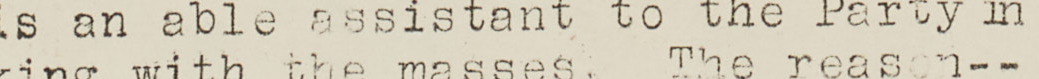Representatives of armed forces to-
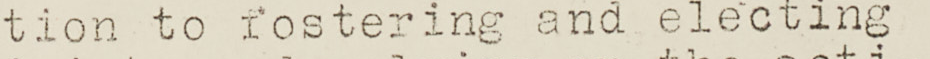"Those rosy hopes, however, did
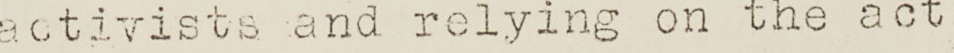not last long--especially on the
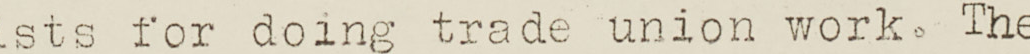part of overseas Chinese. In less
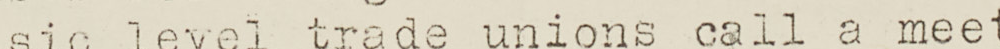than two years the true nature of
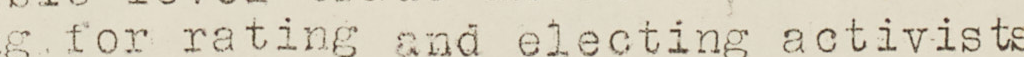the Peiping regime became known to
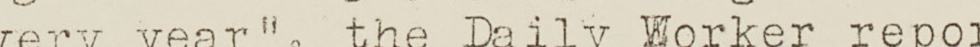many people in the outside world
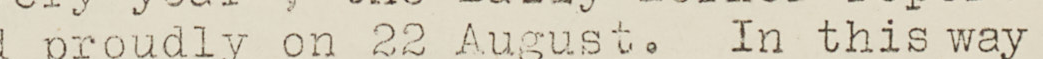The most striking indication of this
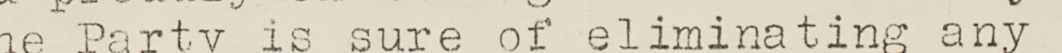fact was the sudden decrease in the
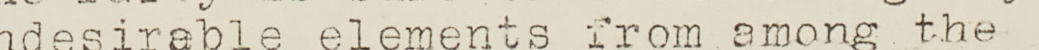number of the Communist 'five star'
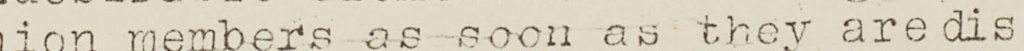flags displayed in Hongkong in the
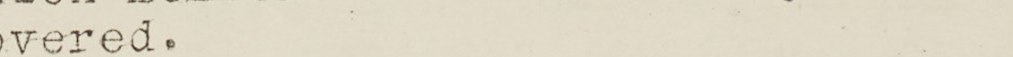annual 'celebration' of October 1.
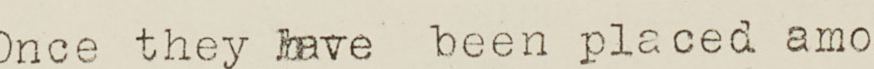"The decrease became more and
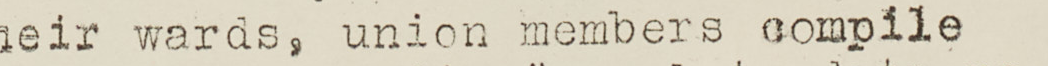more striking each year with the re-
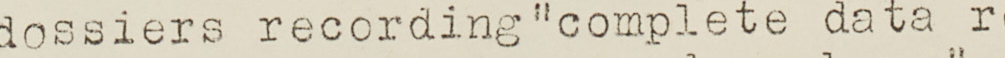sult that two days ago there were
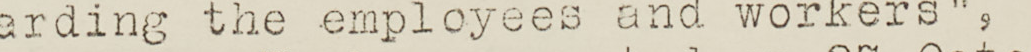hardly any 'five-star' flags to be
